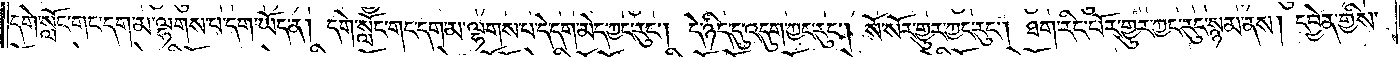དགེ་སློང་གང་དག་མ་ལྷགས་པ་དག་ཡོད་ན། དགེ་སློང་གང་དག་མ་ལྷགས་པ་དེ་དག་མེད་ཀྱང་རུང༌། དེ་ཉིད་དུ་འདུག་ཀྱང་རུང༌། སོ་སོར་གྱུར་ཀྱང་རུང༌། ཐག་རིང་པོར་གྱུར་ཀྱང་རུང་སྙམ་ནས། དབྱེན་གྱིས་
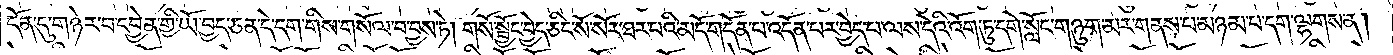དོན་དུ་གཉེར་བ་དབྱེན་གྱི་ཡོ་བྱད་ཅན་དེ་དག་གིས་གསོལ་བ་བྱས་ཏེ། གསོ་སྦྱོང་བྱེད་ཅིང་སོ་སོར་ཐར་བའི་མདོ་གདོན་པ་འདོན་པར་བྱེད་པ་ལས་དེའི་འོག་ཏུ་དགེ་སློང་གཉུག་མར་གནས་པ་མཉམ་པ་དག་ལྷགས་ན།
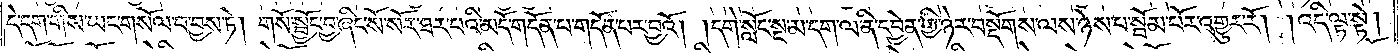དེ་དག་གིས་ཡང་གསོལ་བ་བྱས་ཏེ། གསོ་སྦྱོང་བྱ་ཞིང་སོ་སོར་ཐར་པའི་མདོ་གདོན་པ་གདོན་པར་བྱའོ། །དགེ་སློང་སྔ་མ་དག་ལ་ནི་དབྱེན་གྱི་ཉེར་བསྡོགས་ལས་ཉེས་པ་སྦོམ་པོར་འགྱུར་རོ། །འདི་ལྟ་སྟེ།
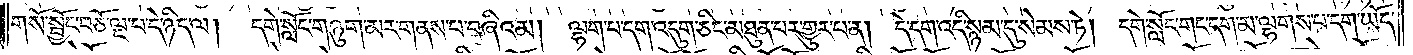གསོ་སྦྱོང་བཅོ་ལྔ་པ་དེ་ཉིད་ལ། དགེ་སློང་གཉུག་མར་གནས་པ་བཞིའམ། ལྷག་པ་དག་འདུག་ཅིང་མཐུན་པར་གྱུར་པ་ན། དེ་དག་འདི་སྙམ་དུ་སེམས་ཏེ། དགེ་སློང་གང་དག་མ་ལྷགས་པ་དག་ཡོད་
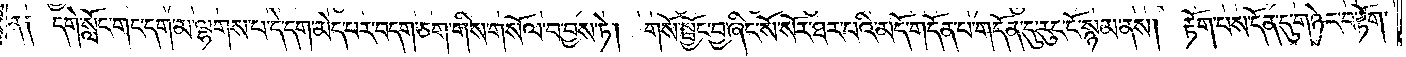ན༑ དགེ་སློང་གང་དག་མ་ལྷགས་པ་དེ་དག་མེད་པར་བདག་ཅག་གིས་གསོལ་བ་བྱས་ཏེ། གསོ་སྦྱོང་བྱ་ཞིང་སོ་སོར་ཐར་པའི་མདོ་གདོན་པ་གདོན་དུ་རུང་ངོ་སྙམ་ནས། རྟོག་པས་དོན་དུ་གཉེར་བ་རྟོག་
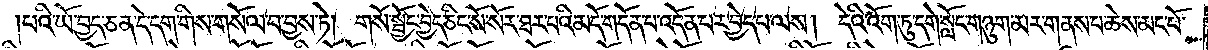པའི་ཡོ་བྱད་ཅན་དེ་དག་གིས་གསོལ་བ་བྱས་ཏེ། གསོ་སྦྱོང་བྱེད་ཅིང་སོ་སོར་ཐར་པའི་མདོ་གདོན་པ་འདོན་པར་བྱེད་པ་ལས། དེའི་འོག་ཏུ་དགེ་སློང་གཉུག་མར་གནས་པ་ཆེས་མང་པོ་
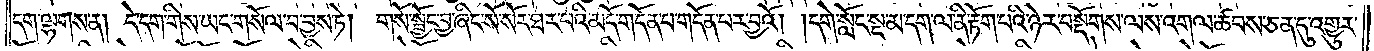དག་ལྷགས་ན། དེ་དག་གིས་ཡང་གསོལ་བ་བྱས་ཏེ། གསོ་སྦྱོང་བྱ་ཞིང་སོ་སོར་ཐར་པའི་མདོ་གདོན་པ་གདོན་པར་བྱའོ། །དགེ་སློང་སྔ་མ་དག་ལ་ནི་རྟོག་པའི་ཉེར་བསྡོགས་ལས་འགལ་ཚབས་ཅན་དུ་འགྱུར་
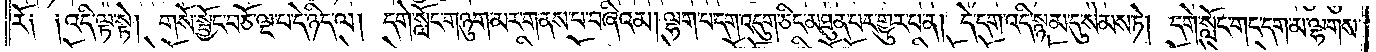རོ༑ ༑འདི་ལྟ་སྟེ། གསོ་སྦྱོང་བཅོ་ལྔ་པ་དེ་ཉིད་ལ། དགེ་སློང་གཉུག་མར་གནས་པ་བཞིའམ། ལྷག་པ་དག་འདུག་ཅིང་མཐུན་པར་གྱུར་པ་ན། དེ་དག་འདི་སྙམ་དུ་སེམས་ཏེ། དགེ་སློང་གང་དག་མ་ལྷགས་
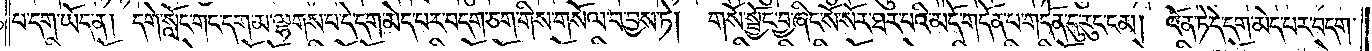པ་དག་ཡོད་ན། དགེ་སློང་གང་དག་མ་ལྷགས་པ་དེ་དག་མེད་པར་བདག་ཅག་གིས་གསོལ་བ་བྱས་ཏེ། གསོ་སྦྱོང་བྱ་ཞིང་སོ་སོར་ཐར་བའི་མདོ་གདོན་པ་གདོན་དུ་རུང་ངམ། འོན་ཏེ་དེ་དག་མེད་པར་བདག་
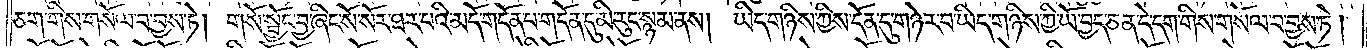ཅག་གིས་གསོལ་བ་བྱས་ཏེ། གསོ་སྦྱོང་བྱ་ཞིང་སོ་སོར་ཐར་པའི་མདོ་གདོན་པ་གདོན་དུ་མི་རུང་སྙམ་ནས། ཡིད་གཉིས་ཀྱིས་དོན་དུ་གཉེར་བ་ཡིད་གཉིས་ཀྱི་ཡོ་བྱད་ཅན་དེ་དག་གིས་གསོལ་བ་བྱས་ཏེ།
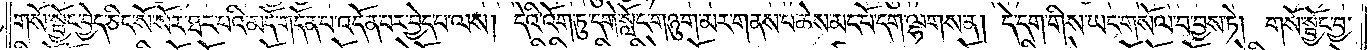གསོ་སྦྱོང་བྱེད་ཅིང་སོ་སོར་ཐར་པའི་མདོ་གདོན་པ་འདོན་པར་བྱེད་པ་ལས། དེའི་འོག་ཏུ་དགེ་སློང་གཉུག་མར་གནས་པ་ཆེས་མང་པོ་དག་ལྷགས་ན། དེ་དག་གིས་ཡང་གསོལ་བ་བྱས་ཏེ། གསོ་སྦྱོང་བྱ་
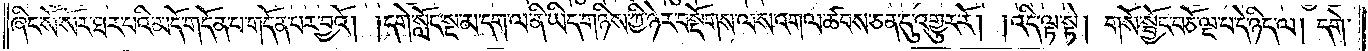ཞིང་སོ་སོར་ཐར་པའི་མདོ་གདོན་པ་གདོན་པར་བྱའོ། །དགེ་སློང་སྔ་མ་དག་ལ་ནི་ཡིད་གཉིས་ཀྱི་ཉེར་བསྡོགས་ལས་འགལ་ཚབས་ཅན་དུ་འགྱུར་རོ། །འདི་ལྟ་སྟེ། གསོ་སྦྱོང་བཅོ་ལྔ་པ་དེ་ཉིད་ལ། དགེ་
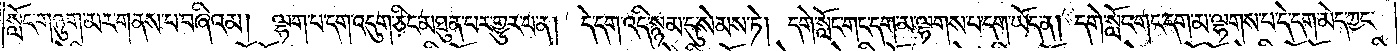སློང་གཉུག་མར་གནས་པ་བཞིའམ། ལྷག་པ་དག་འདུག་ཅིང་མཐུན་པར་གྱུར་པ་ན། དེ་དག་འདི་སྙམ་དུ་སེམས་ཏེ། དགེ་སློང་གང་དག་མ་ལྷགས་པ་དག་ཡོད་ན། དགེ་སློང་གང་དག་མ་ལྷགས་པ་དེ་དག་མེད་ཀྱང་
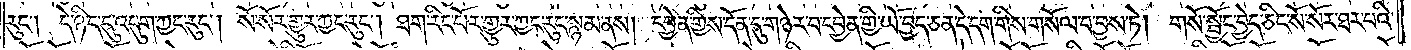རུང༌། དེ་ཉིད་དུ་འདུག་ཀྱང་རུང༌། སོ་སོར་གྱུར་ཀྱང་རུང༌། ཐག་རིང་པོར་གྱུར་ཀྱང་རུང་སྙམ་ནས། དབྱེན་གྱིས་དོན་དུ་གཉེར་བ་དབྱེན་གྱི་ཡོ་བྱད་ཅན་དེ་དག་གིས་གསོལ་བ་བྱས་ཏེ། གསོ་སྦྱོང་བྱེད་ཅིང་སོ་སོར་ཐར་པའི་
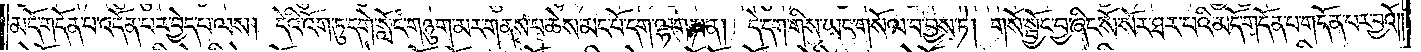མདོ་གདོན་པ་འདོན་པར་བྱེད་པ་ལས། དེའི་འོག་ཏུ་དགེ་སློང་གཉུག་མར་གནས་པ་ཆེས་མང་པོ་དག་ལྷགས་ན། དེ་དག་གིས་ཡང་གསོལ་བ་བྱས་ཏེ། གསོ་སྦྱོང་བྱ་ཞིང་སོ་སོར་ཐར་པའི་མདོ་གདོན་པ་གདོན་པར་བྱའོ།
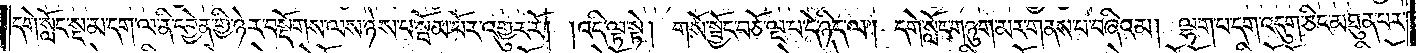དགེ་སློང་སྔ་མ་དག་ལ་ནི་དབྱེན་གྱི་ཉེར་བསྡོགས་ལས་ཉེས་པ་སྦོམ་པོར་འགྱུར་རོ། །འདི་ལྟ་སྟེ། གསོ་སྦྱོང་བཅོ་ལྔ་པ་དེ་ཉིད་ལ། དགེ་སློང་གཉུག་མར་གནས་པ་བཞིའམ། ལྷག་པ་དག་འདུག་ཅིང་མཐུན་པར་
